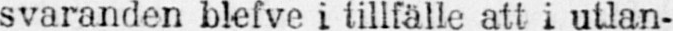svaranden blefve i tillfälle att i utlan-
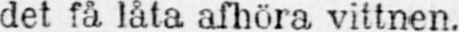det få låta afhöra vittnen.
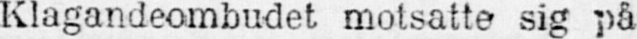Klagandeombudet motsatte sig på
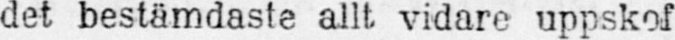det bestämdaste allt vidare uppskof
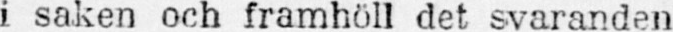i saken och framhöll det svaranden
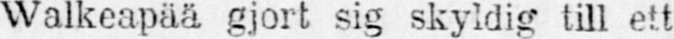Walkeapää gjort sig skyldig till ett
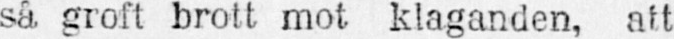så groft brott mot klaganden, att
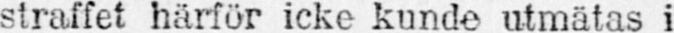straffet härför icke kunde utmätas i
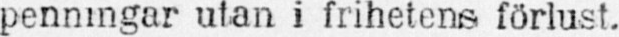penningar utan i frihetens förlust.
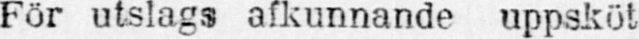För utslags afkunnande uppsköt
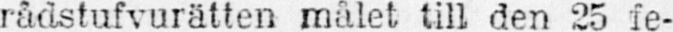rådstufvurätten målet till den 25 fe-
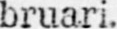bruari.
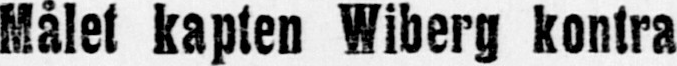Målet kapten Wiberg kontra
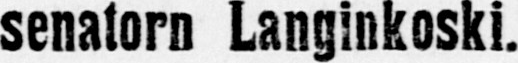senatorn Langinkoski.
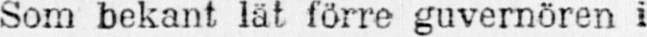Som bekant lät förre guvernören i
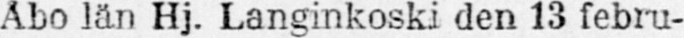Åbo län Hj. Langinkoski den 13 febru-
